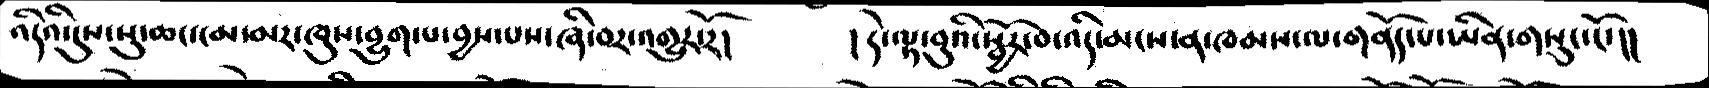འདིའི་དུས་སུ་ཆང་ངམ་མར་ཁུས་བྱུག་པ་བྱས་པས་ཞི་བར་འགྱུར་རོ།   །དེ་ལྟ་བུའི་སྦྱོར་བ་འདི་མངས་ན་ཁམས་ལ་གནོད་པ་ཡིན་གསུང་ངོ་།།
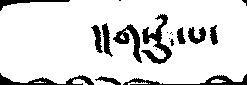།།གསུཾ་པ་
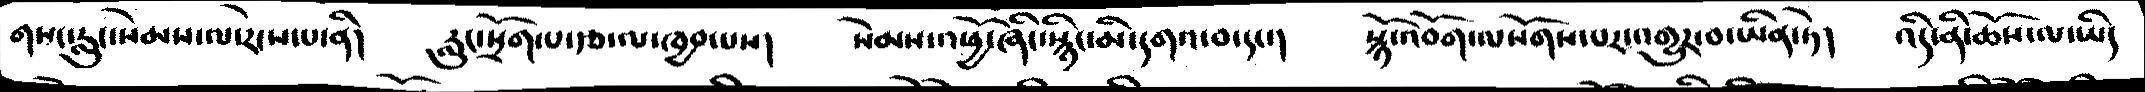གསང་རླུང་སེམས་ལ་རེངས་པ་ནི།   རླུང་སྲོག་པ་རྩ་ལ་ཁྱབ་པས།   སེམས་འཕྱོ་ཞིང་སྙིང་མི་དགའ་བ་དང་།   སྙོ་འབོག་ལསོགས་པར་འགྱུར་བ་ཡིན་ཏེ།   འདི་ནི་ཆོས་ལ་ཡིད
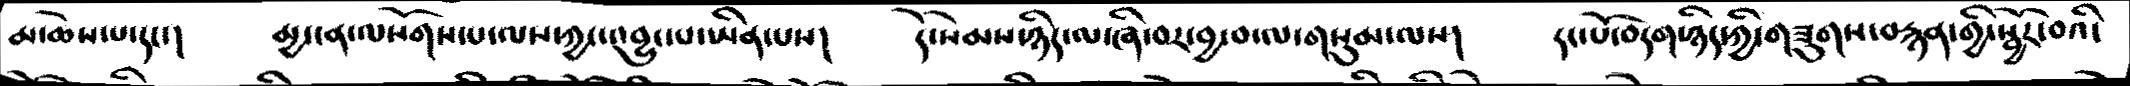མ་ཆེས་པ་དང་།   མྱ་ངན་ལསོགས་པ་ལས་ཀྱང་འབྱུང་པ་ཡིན་པས།   དེ་སེམས་ཉིད་ལ་ཞི་བར་བྱ་བ་ལ་གསུམ་ལས།   དང་པོ་བདག་ཉིད་ཀྱི་གཟུགས་བརྙན་གྱི་སྦྱོར་བའི་
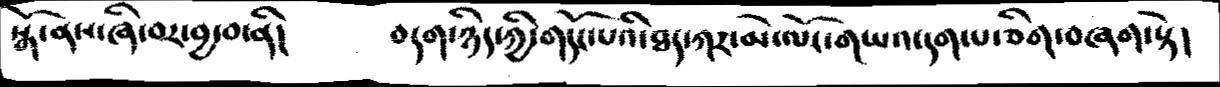སྒོ་ནས་ཞི་བར་བྱ་བ་ནི།   བདག་ཉིད་ཀྱི་གདོང་པའི་ཐད་ཀར་མེ་ལོང་གཡའ་དག་པ་ཅིག་བཞག་སྟེ།
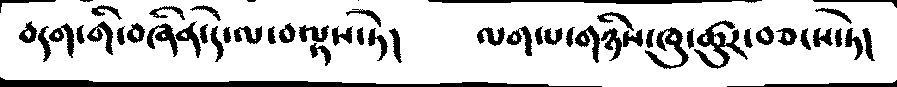བདག་གི་བཞིན་དེ་ལ་བལྟས་ཏེ།   ལག་པ་གཉིས་ཁུ་ཚུར་བཅངས་ཏེ།
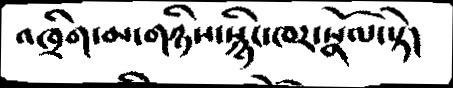འཁྲིག་མ་གཉིས་སྙིང་ཁར་སྣོལ་སྟེ།
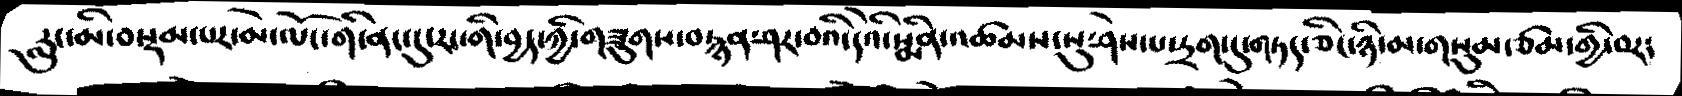རླུང་མི་བསྡམ་པར་མེ་ལོང་གི་ནང་དུ་རང་གི་བྱད་ཀྱི་གཟུགས་བརྙན་ཤར་བའི་དེའི་སྨིན་འཚམས་སུ་ཤེས་པ་དྲག་དུ་གཏད་ཅིང་ཉི་མ་གསུམ་ཙམ་གྱི་བར་
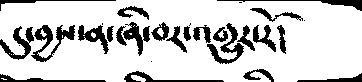དུ་བྱས་ན་ཞི་བར་འགྱུར་རོ།
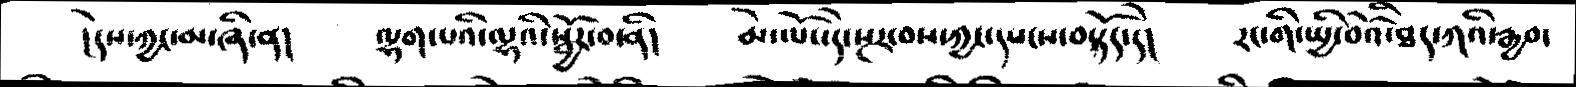།དེས་ཀྱང་མ་ཞི་ན།   ལྷག་པའི་ལྷའི་སྦྱོར་བ་ནི།   མེ་ལོང་དེ་སྔར་བས་ཀྱང་དཔངས་བསྟོད་དེ།   རང་གི་སྤྱི་བོའི་ཐད་ཀའི་རྒྱབ་
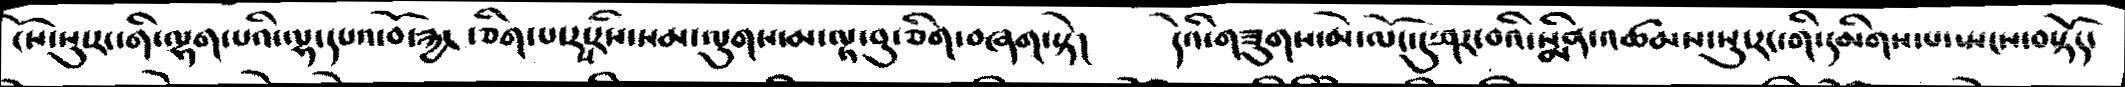ངོས་སུ་རང་གི་ལྷག་པའི་ལྷ་དཔའ་བོ་རྐྱང་ཅིག་པ་རས་རིས་སམ་ལུགས་མ་ལྟ་བུ་ཅིག་བཞག་སྟེ།   དེའི་གཟུགས་མེ་ལོང་དུ་ཤར་བའི་སྨིན་འཚམས་སུ་རང་གི་དམིགས་པ་སྤངས་བསྟོད་
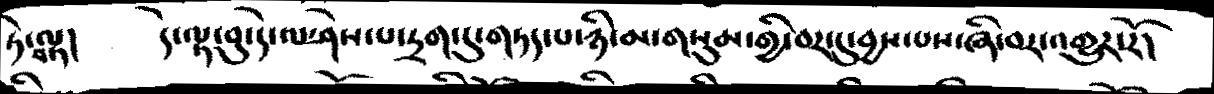ཏེ་བལྟ།   དེ་ལྟ་བུ་དེ་ལ་ཤེས་པ་དྲག་དུ་གཏད་པ་ཉི་མ་གསུམ་གྱི་བར་དུ་བྱས་པས་ཞི་བར་འགྱུར་རོ།
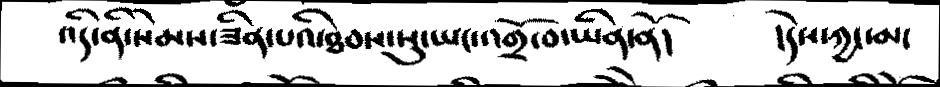འདི་ནི་སེམས་ཟིན་པའི་ཐབས་སུ་ཡང་འགྲོ་བ་ཡིན་ནོ།   །དེས་ཀྱང་མ་
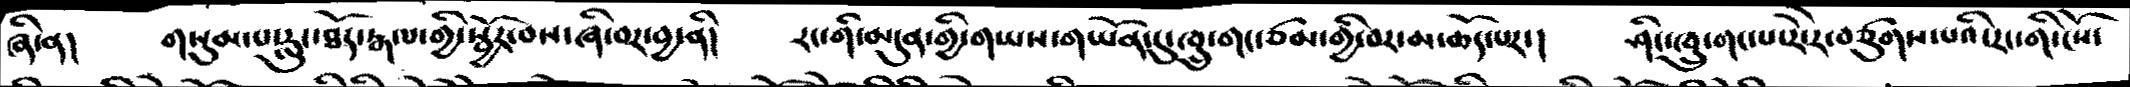ཞི་ན།   གསུམ་པ་རླུང་ཐོད་རྒལ་གྱི་སྦྱོར་བས་ཞི་བར་བྱ་ནི།   རང་གི་མདུན་གྱི་གཡས་གཡོན་དུ་ཁྲུ་གང་ཙམ་གྱི་བར་མ་ཆོད་པར་།   ཤིང་ཁྲུ་གང་པ་རེ་རེ་བཙུགས་པའི་རང་གི་ངོས་
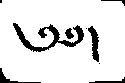༄༅།
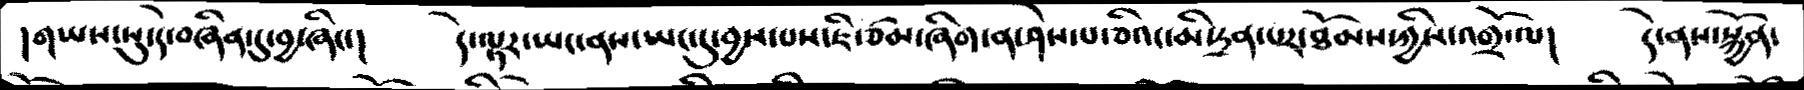།གཡས་སུ་དེ་བཞིན་དུ་བྱ་ཞིང་།   དེ་ལྟར་ཡང་ནས་ཡང་དུ་བྱས་པས་ཇི་ཙམ་ཞིག་ན་ཤེས་པ་ཅིའ་མི་དྲན་པར་ཐོམས་ཀྱིས་འགྲོ་ལ།   དེ་ནས་སྐྱོན་
